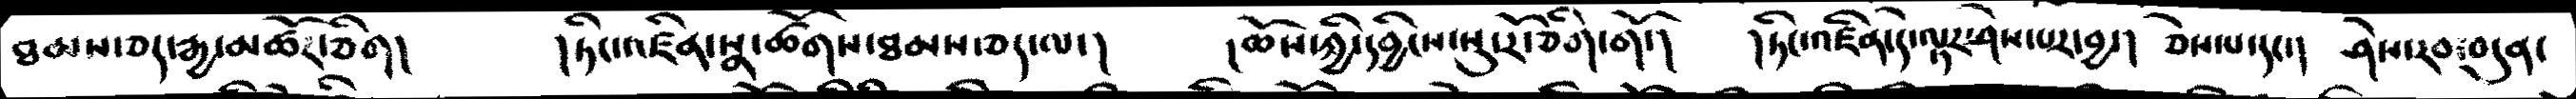ཐམས་ཅད་རྒྱ་མཚོར་ཅིག།    །ཏིང་འཛིན་སྣ་ཚོགས་ཐམས་ཅད་ལ་།    །ཆོས་ཀྱི་དབྱིངས་སུ་རོ་ཅིག་གོ་།    །ཏིང་འཛིན་དེ་ལྟར་ཤེས་པར་བྱ་།    ཅེས་པ་དང་།   ཤེས་རབ་བདུན་
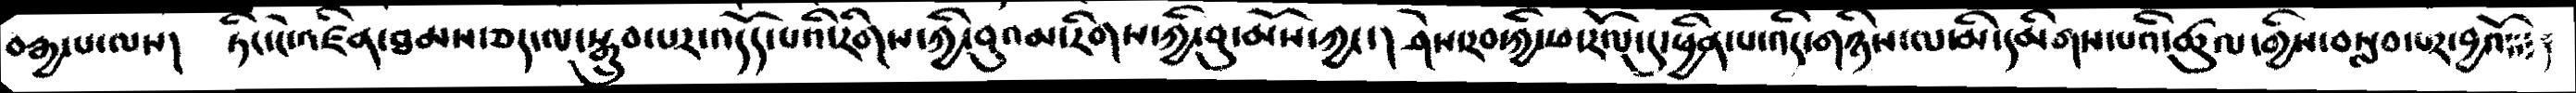བརྒྱ་པ་ལས།   ཏིང་ངེ་འཛིན་ཐམས་ཅད་ལ་སྒྲུབ་པར་འདོད་པའི་རིགས་ཀྱི་བུའམ་རིགས་ཀྱི་བུ་མོས་ཀྱང་།   ཤེས་རབ་ཀྱི་ཕ་རོལ་དུ་ཕྱིན་པ་འདི་གཉིས་ལ་མི་དམིགས་པའི་ཚུལ་གྱིས་བསླབ་པར་བྱའོ༴༴༴༑
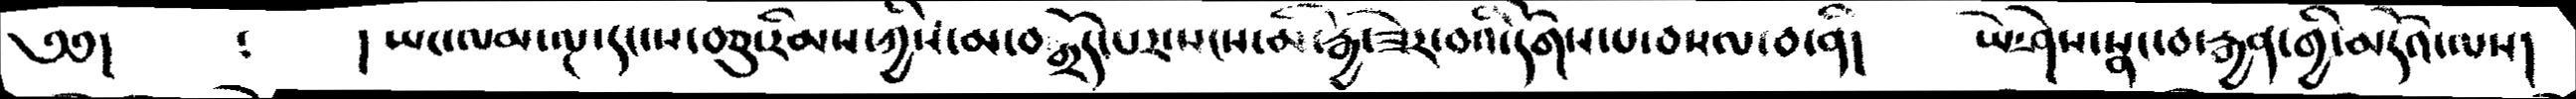༄༅།     ༴    ། ཡང་ལམ་ལྔ་དང་ས་བཅུ་རིམས་ཀྱིས་མ་བསྒྲོད་པར་སངས་མི་རྒྱ་ཟེར་བའི་དོགས་པ་བསལ་བ་ནི།     ཡེ་ཤེས་སྣང་བ་རྒྱན་གྱི་མདོའ་ལས།
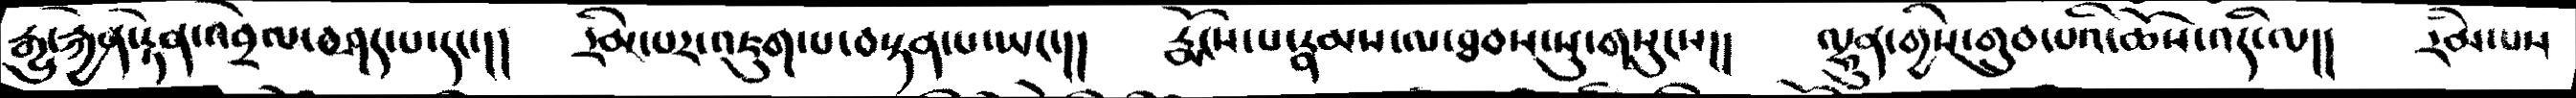རྒྱུ་རྐྱེན་རྟེན་འབྲེལ་བཤད་པ་དང་།    རིམ་པར་འཇུག་པ་བསྟན་པ་ཡང་།།   རྨོངས་པ་རྣམས་ལ་ཐབས་སུ་གསུངས།།  ལྷུན་གྱིས་གྲུབ་པའི་ཆོས་འདི་ལ།།  རིམ་པས
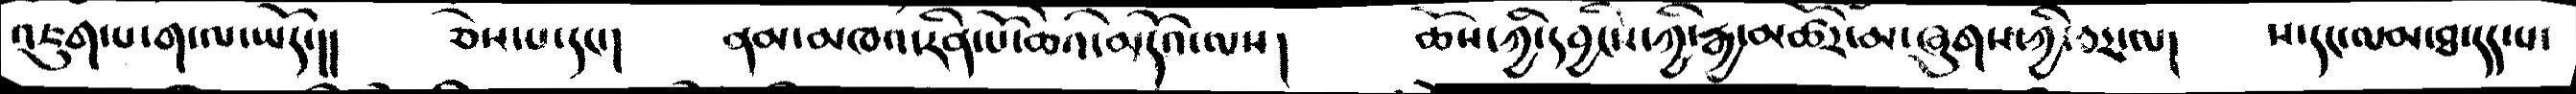འཇུག་པ་ག་ལ་ཡོད་།།    ཅེས་པ་དང་།   ནམ་མཁའ་རིན་པོ་ཆེའི་མདོ་ལས།    ཆོས་ཀྱི་དབྱིངས་ཀྱི་རྒྱ་མཚོར་མ་ཞུགས་ཀྱི་བར་ལ།   ས་དང་ལམ་ཐ་དད་པ་
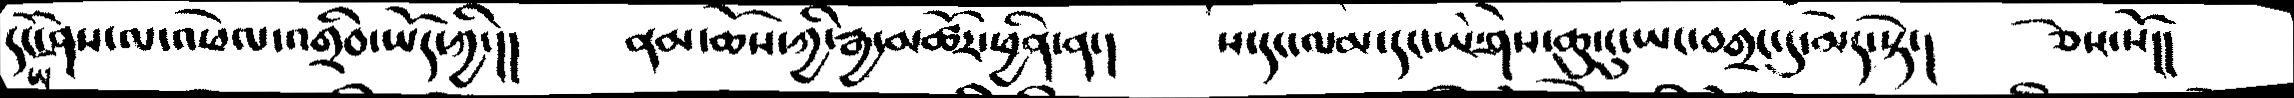དང་ཡེ་ཤེས་པ་འཕེལ་འགྲིབ་ཡོད་ཀྱི་།།   ནམ་ཆོས་ཀྱི་རྒྱ་མཚོར་ཕྱིན་ན་།     ས་དང་ལམ་དང་ཡེ་ཤེས་ཆུ་ངུ་ཡང་བགྲང་དུ་མེད་སྟེ་།   ཅེས་སོ།།
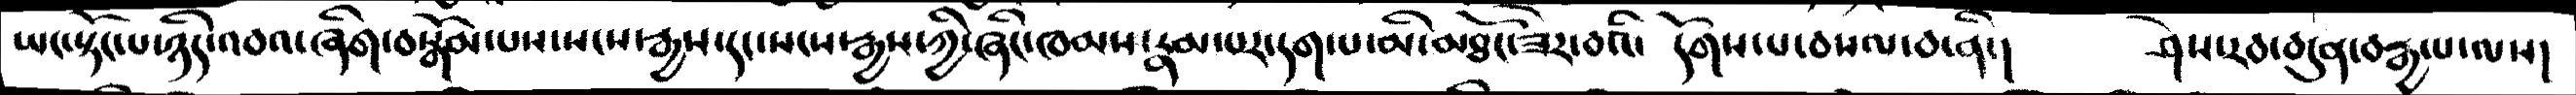ཡང་སྟོང་པ་ཉིད་འབའ་ཞིག་བསྒོམ་པས་སངས་རྒྱས་དང་སངས་རྒྱས་ཞིང་ཁམས་རྣམ་པར་དག་པ་མི་མཐོང་ཟེར་བའི་དོགས་པ་བསལ་བ་ནི་།    ཤེས་རབ་བདུན་བརྒྱ་པ་ལས།
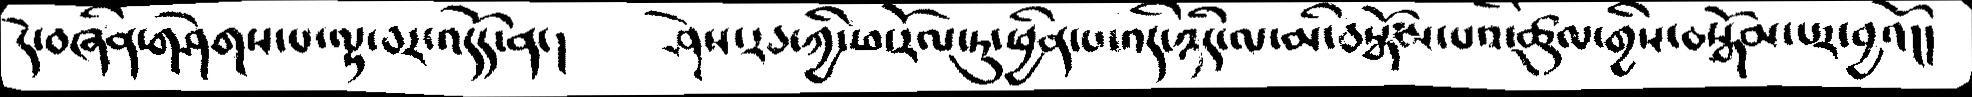དེ་བཞིན་གཤེགས་པ་ལྟ་བར་འདོད་ན་།    ཤེས་རབ་ཀྱི་ཕ་རོལ་ཏུ་ཕྱིན་པ་འདི་ཉིད་ལ་མི་བསྒོམ་པའི་ཚུལ་གྱིས་བསྒོམ་པར་བྱའོ།།
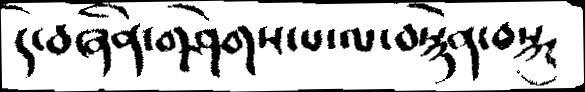དེ་བཞིན་གཤེགས་པ་ལ་བསྙེན་བསྐུ
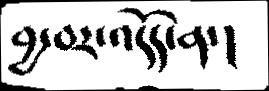བྱ་བར་འདོད་ན་།
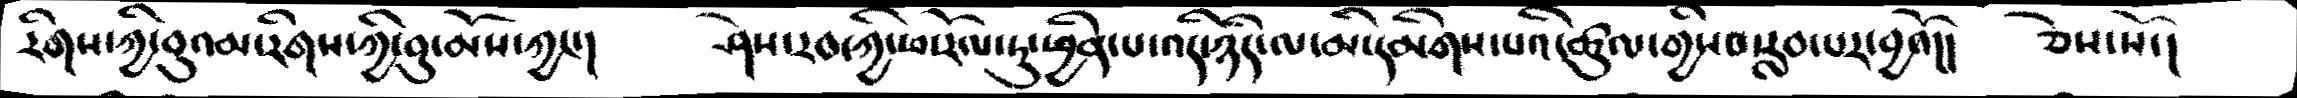རིགས་ཀྱི་བུའམ་རིགས་ཀྱི་བུ་མོས་ཀྱང་།    ཤེས་རབ་ཀྱི་ཕ་རོལ་ཏུ་ཕྱིནཔ་འདི་ཉིད་ལ་མི་དམིགས་པའི་ཚུལ་གྱིས་བརླབ་པར་བྱའོ།།   ཅེས་སོ་།
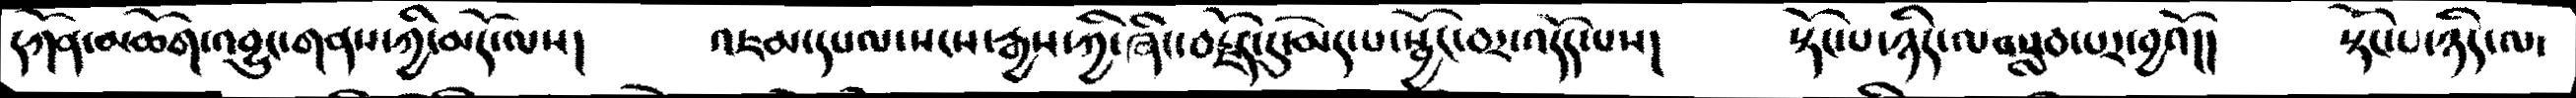དཀོན་མཆོག་འབྱུང་གནས་ཀྱི་མདོ་ལས།   འཇམ་དཔལ་སངས་རྒྱས་ཀྱི་ཞིང་བརྗོད་དུ་མེད་པ་སྦྱོང་བར་འདོད་པས།   སྟོང་པ་ཉིད་ལ་བསླབ་པར་བྱའོ།།   སྟོང་པ་ཉིད་ལ་
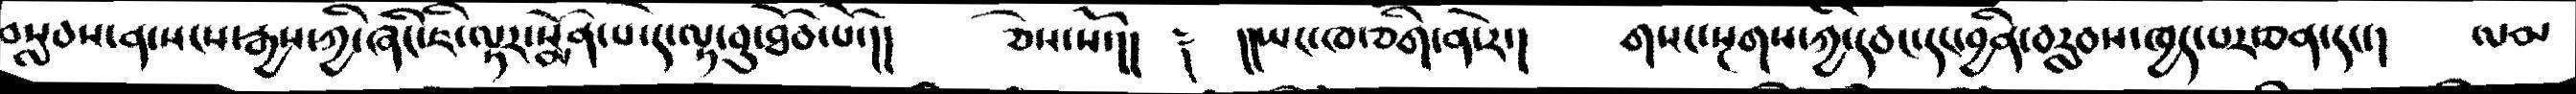བསླབས་ན་སངས་རྒྱས་ཀྱི་ཞིང་ཇི་ལྟར་སྨོན་པ་དེ་ལྟ་བུ་ཐོབ་པོ་།།   ཅེས་སོ་།།  ༈ །།ཡང་ཁ་ཅིག་ན་རེ་།    གསང་སྔགས་ཀྱི་དབང་དང་བྱིན་བརླབས་ཁྱད་པར་ཅན་དང་།   ལམ
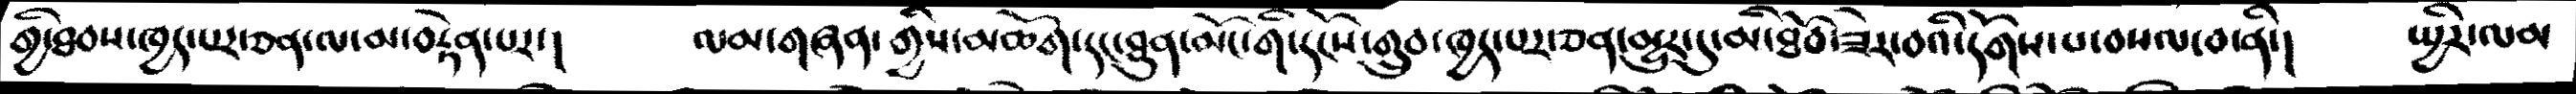གྱི་ཐབས་ཁྱད་པར་ཅན་ལ་མ་བརྟེན་པར།   ལམ་གཞན་གྱིས་མཆོག་དང་ཐུན་མོང་གི་དངོས་གྲུབ་ཁྱད་པར་ཅན་མྱུར་དུ་མི་ཐོབ་ཟེར་བའི་དོགས་པ་བསལ་བ་ནི་།   སྤྱིར་ལམ
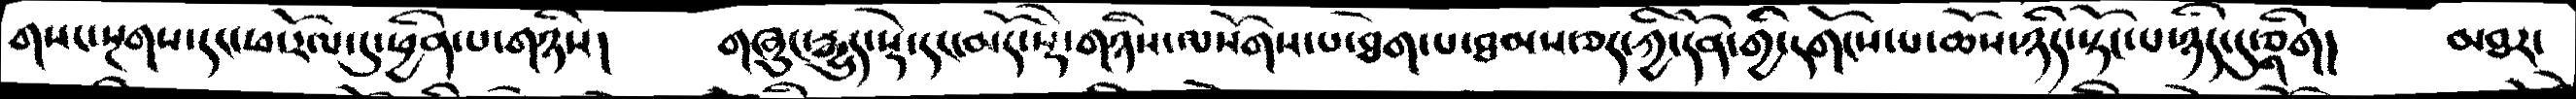གསང་སྔགས་དང་ཕ་རོལ་དུ་ཕྱིན་པ་གཉིས།   གཞུང་རྒྱུད་སྡེ་དང་མདོ་སྡེ་གཉིས་ལ་སོགས་པ་ཐེག་པ་ཐམས་ཅད་ཀྱི་དདོན་གྱི་་དགོངས་པ་ཆོས་ཉིད་སྟོང་པ་ཉིད་དུ་གཅིག།   མཐར་
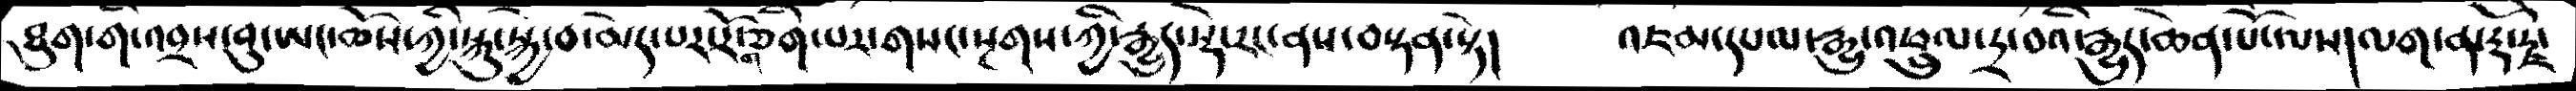ཐུག་གི་འབྲས་བུ་ཡང་ཁོས་ཀྱི་སྐུ་སྐྱེ་བ་མེད་པར་རོ་ཅིག་པར་གསང་སྔགས་ཀྱི་རྒྱུད་སྡེ་རང་ནས་བསྟན་སྟེ།    འཇམ་དཔལ་རྒྱུ་འཕྲུལ་དྲ་བའི་རྒྱུད་ཆེན་པོ་ལས།ལག་ན་རྡོ་རྗེ་
